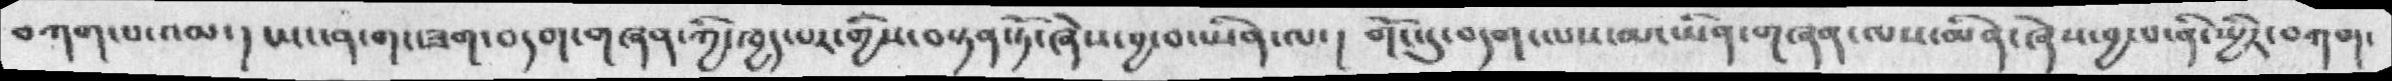བཀག་པ་འམ་། ཡང་ན་གང་ཟག་བདག་གཞན་ཀྱི་ཁྱད་པར་གྱིས་བསྟན་ཏོ་ཞེས་བྱ་བ་ཡིན་ལ་།  གོང་དུ་བདག་ལས་མ་ཡིན་གཞན་ལས་མིན་ཞེས་བྱ་བ་ནི་སྤྱིར་བཀག་
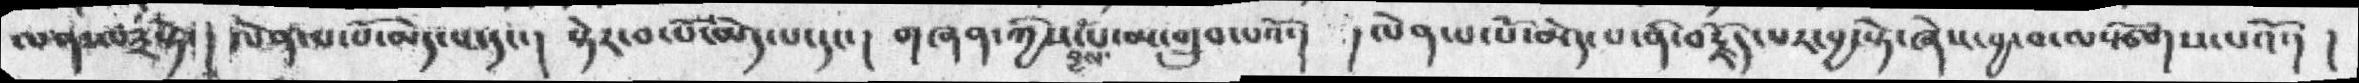ལགས་པ༣སྟེ་།   ལེན་པ་པོ་མེད་པ་དང་།  སྟེར་བ་པོ་མེད་པ་དང་།  གཞན་ཀྱིས་བྱས་པ་མ་གྲུབ་པའོ་།  ། ལེན་པ་པོ་མེད་པ་ནི་བརྗོད་པར་བྱ་སྟེ་ཞེས་བྱ་བ་ལསྩོགས་པའོ་།  །
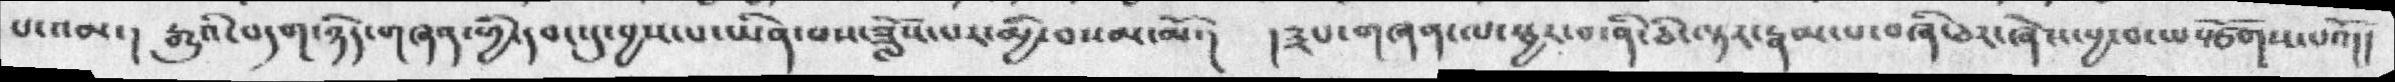པ་འམ་། རྒྱུའི་བདག་ཉིད་གཞན་གྱི་དབང་དུ་བྱས་པ་ཡིན་པས་ཟློས་པར་མྱི་བསམ་མོ་།  །༣པ་གཞན་ལ་སྦྱར་བ་ནི་ཅི་ལྟར་རྣམ་པ་བཞི་ཅར་ཞེས་བྱ་བ་ལསྩོགས་པའོ།།
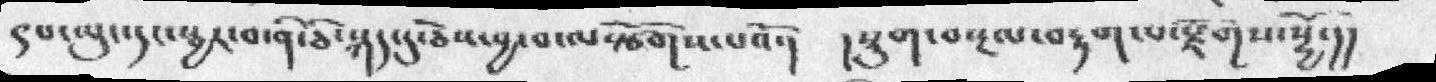༩པ་ལུང་དང་སྦྱར་བ་ནི་ཅི་སྐད་དུ་ཅེས་བྱ་བ་ལསྩོགས་པའོ་།  །སྡུག་བསྔལ་བརྟག་པ་རྫོགས་སྷྱོ་།།
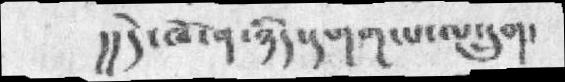།།དེ་ཁོ་ན་ཉིད་དགག་པ་ལ་དྲུག་
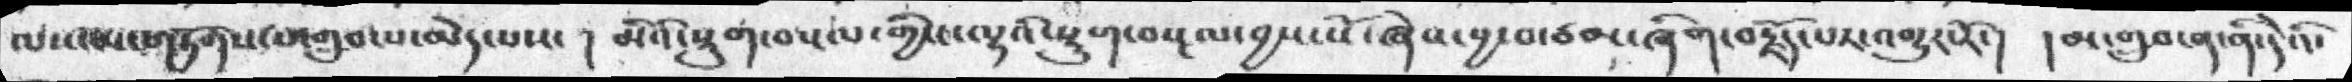ལས་མ་གཏོགས་པ་གྲུབ་པ་མེད་པས་། མིའི་སྡུག་བསྔལ་གྱིས་ལྷའི་སྡུག་བསྔལ་བྱས་སོ་ཞེས་བྱ་བ་ཙམ་ཞིག་བརྗོད་པར་འགྱུར་རོ་། །མ་གྲུབ་ན་ནི་དེའི་
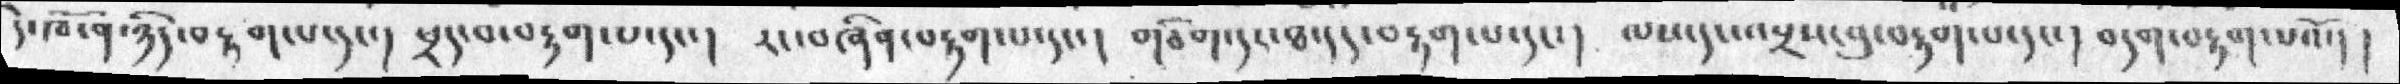དེ་ཁོ་ན་ཉིད་བརྟག་པ་དང་།  ཕྲད་པ་བརྟག་པ་དང་།   རང་བཞིན་བརྟག་པ་དང་།   གཅིག་དང་ཐ་དད་བརྟག་པ་དང་།  ལས་དང་འབྲས་བུ་བརྟག་པ་དང་།  བདག་བརྟག་པའོ་། །
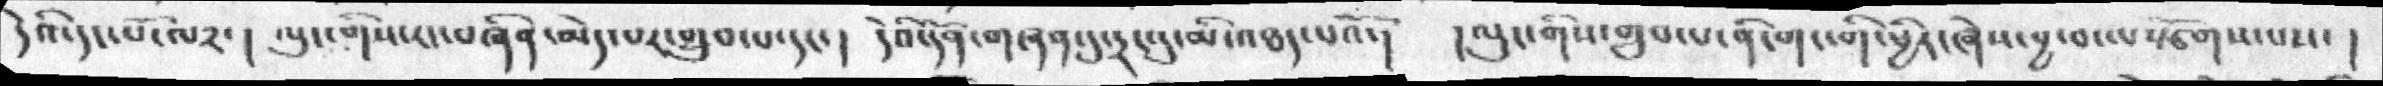དེའི་དང་པོ་ལ༢་། ལུང་གིས་རང་བཞིན་མེད་པར་གྲུབ་པ་དང་།  དེའི་དོན་གཞན་དུ་དྲང་དུ་མི་འཐད་པའོ་།  །ལུང་གིས་གྲུབ་པ་ནི་གང་གི་ཕྱིར་ཞེས་བྱ་བ་ལསྩོགས་པས་།
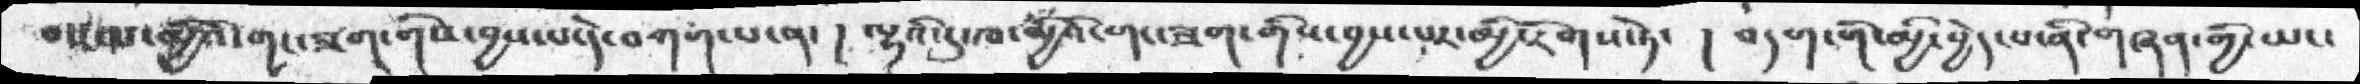བ་ལ་མྱིའི་གང་ཟག་གིས་བྱས་པ་དེ་བཀག་པ་ན་།  ལྷའི་དུ་ཁ་མྱིའི་གང་ཟག་གིས་བྱས་པར་མྱི་རིགས་ཏེ་  །   བདག་གི་མྱིང་བྱེད་པ་ནི་གཞན་གྱི་ཡང་
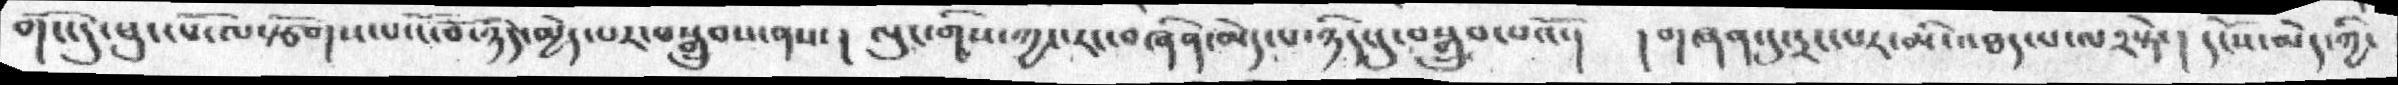གོང་དུ་ཕུང་པོ་ལསྩོགས་པ་ངོ་བོ་ཉིད་མྱེད་པར་བསྒྲུབས་ནས་།  ལུང་གིས་ཀྱང་རང་བཞིན་མེད་པ་ཉིད་དུ་བསྒྲུབ་པའོ་།  །གཞན་དུ་དྲང་པར་མི་འཐད་པ་ལ༢སྟེ་། དངོས་མེད་ཀྱི་
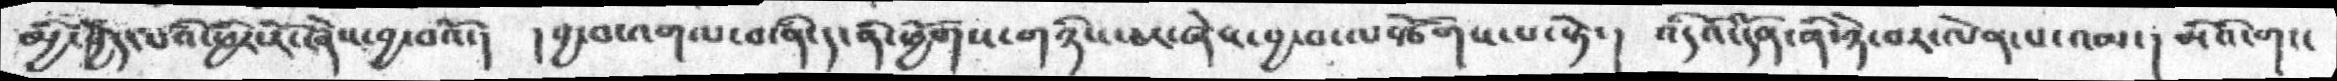མྱི་བྱེད་པའི་ཕྱིར་རོ་ཞེས་བྱ་བའོ་།  །བྱ་བ་འགལ་བ་ནི་ད་ནི་ཕྱོགས་གཉིས་ཅར་ཞེས་བྱ་བ་ལསྩོགས་པ་སྟེ་། འདིའི་དོན་ནི་ཉེ་བར་ལེན་པ་འམ་། མིའི་གང་
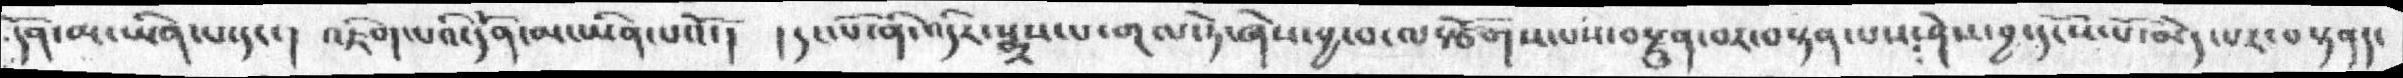དོན་མ་ཡིན་པ་དང་། འཇིག་པའི་དོན་མ་ཡིན་པའོ་།  །དང་པོ་ནི་འདིར་སྨྲས་པ་གལ་ཏེ་ཞེས་བྱ་བ་ལསྩོགས་པས་བརྫུན་པར་བསྟན་པས་ཤེས་བྱ་དངོས་པོ་མེད་པར་བསྟནད་
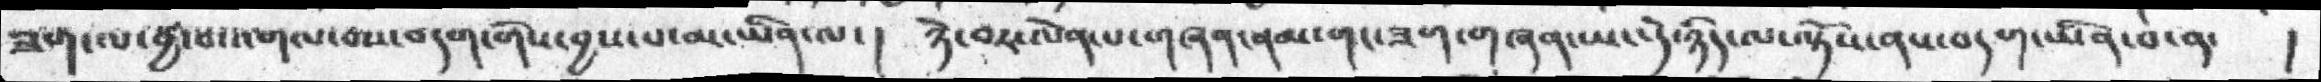ཟག་ལ་བྱ་བ་འགལ་བས་བདག་གིས་བྱས་པ་མ་ཡིན་ལ་།  ཉེ་བར་ལེན་པ་གཞན་ནམ་གང་ཟག་གཞན་ཡང་དེ་ཉིད་ལ་ལྟོས་ནས་བདག་ཡིན་པ་ན་  །
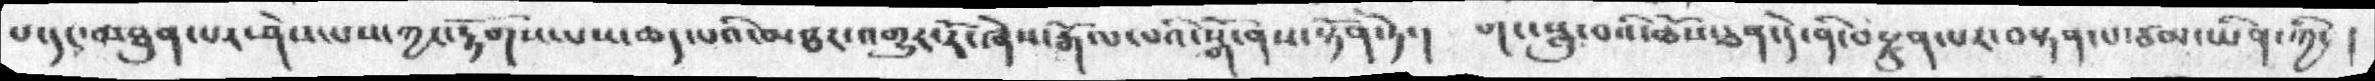པ་དང་མཐུན་པར་ཤེས་པས་ཀྱང་རྟོགས་པས་ཆད་པའི་མཐར་འགྱུར་རོ་ཞེས་རྒོལ་པའི་སྒོ་ནས་སྟོན་ཏེ་།  གང་སླུ་བའི་ཆོས་ཅན་དེ་ནི་བརྫུན་པར་བསྟན་པ་ཙམ་ཡིན་ཀྱི་།
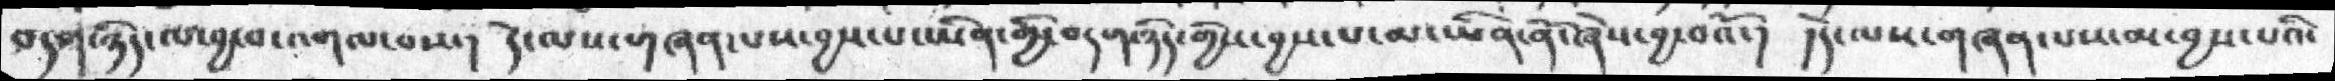བདག་ཉིད་ལ་བྱ་བ་འགལ་བས་། དེ་ལས་གཞན་པས་བྱས་པ་ཡིན་གྱི་བདག་ཉིད་གྱིས་བྱས་པ་མ་ཡིན་ནོ་ཞེས་བྱ་བའོ་།  །དེ་ལས་གཞན་པས་མ་བྱས་པའི་
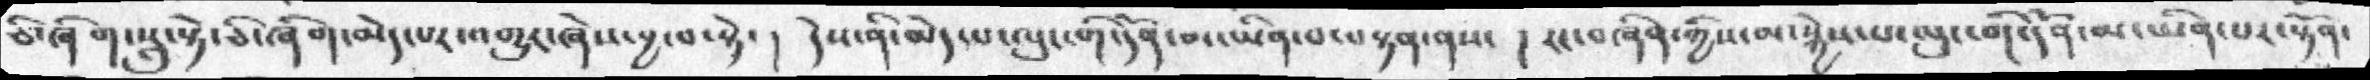ཅི་ཞིག་སླུ་སྟེ་ཅི་ཞིག་མེད་པར་འགྱུར་ཞེས་བྱ་བ་སྟེ་། དེས་ནི་མེད་པ་ལུང་གི་དོན་མ་ཡིན་པ་བསྟན་ནས་ རང་བཞིན་ཀྱིས་མ་སྐྱེས་པ་ལུང་གི་དོན་མ་ཡིན་པར་སྟོན་
